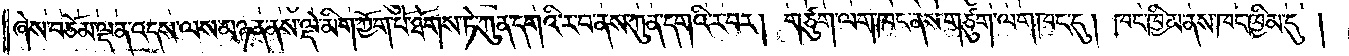ཞེས་བཅོམ་ལྡན་འདས་ལས་མཉན་ནས་ལྡེ་མིག་ཀྱོག་པོ་ཐོགས་ཏེ་ཀུན་དགའི་ར་བ་ནས་ཀུན་དགའི་ར་བར། གཙུག་ལག་ཁང་ནས་གཙུག་ལག་ཁང་དུ། ཁང་ཁྱིམ་ནས་ཁང་ཁྱིམ་དུ་།
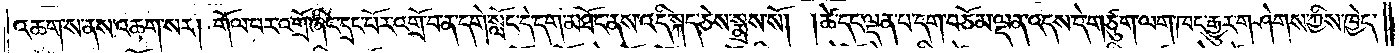འཆག་ས་ནས་འཆག་སར། གོལ་བར་འགྲོ་ཞིང་དྲང་པོར་འགྲོ་བ་ན་དགེ་སློང་དེ་དག་མཐོང་ནས་འདི་སྐད་ཅེས་སྨྲས་སོ། །ཚེ་དང་ལྡན་པ་དག་བཅོམ་ལྡན་འདས་དེ་གཙུག་ལག་ཁང་རྒྱུར་གཤེགས་ཀྱིས་ཁྱེད་
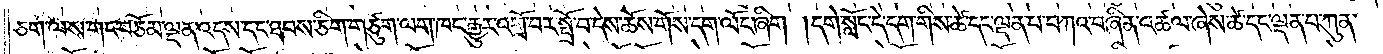ཅག་ལས་གང་བཅོམ་ལྡན་འདས་དང་ཐབས་ཅིག་གཙུག་ལག་ཁང་རྒྱུར་འགྲོ་བར་སྤྲོ་བ་དེས་ཆོས་གོས་དག་ལོང་ཞིག །དགེ་སློང་དེ་དག་གིས་ཚེ་དང་ལྡན་པ་བཀའ་བཞིན་འཚལ་ཞེས་ཚེ་དང་ལྡན་པ་ཀུན་
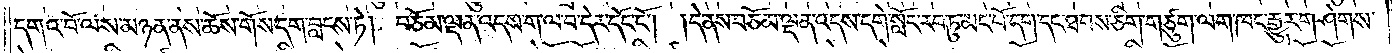དགའ་བོ་ལས་མཉན་ནས་ཆོས་གོས་དག་བླངས་ཏེ། བཅོམ་ལྡན་འདས་ག་ལ་བ་དེར་དོང་ངོ༌། །དེ་ནས་བཅོམ་ལྡན་འདས་དགེ་སློང་རབ་ཏུ་མང་པོ་དག་དང་ཐབས་ཅིག་གཙུག་ལག་ཁང་རྒྱུར་གཤེགས་
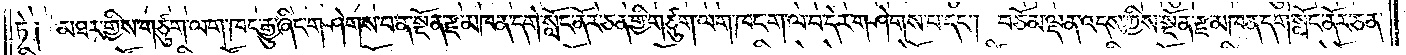ཏེ༑ མཐར་གྱིས་གཙུག་ལག་ཁང་རྒྱུ་ཞིང་གཤེགས་པ་ན་སྔོན་རྫ་མཁན་དགེ་སློང་ནོར་ཅན་གྱི་གཙུག་ལག་ཁང་ག་ལ་བ་དེར་གཤེགས་པ་དང༌། བཅོམ་ལྡན་འདས་ཀྱིས་སྔོན་རྫ་མཁན་དགེ་སློང་ནོར་ཅན་
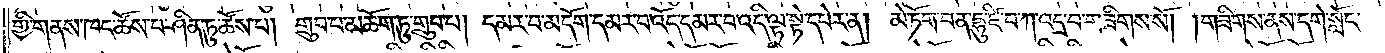གྱི་གནས་ཁང་ཚོས་པ་ཤིན་ཏུ་ཚོས་པ། གྲུབ་པ་མཆོག་ཏུ་གྲུབ་པ། དམར་བ་མདོག་དམར་བ་འོད་དམར་བ་འདི་ལྟ་སྟེ་དཔེར་ན། མེ་ཏོག་བན་དྷུ་ཛི་བ་ཀ་འདྲ་བ་གཟིགས་སོ། །གཟིགས་ནས་དགེ་སློང་
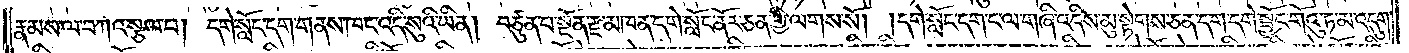རྣམས་ལ་བཀའ་སྩལ་པ། དགེ་སློང་དག་གནས་ཁང་འདི་སུའི་ཡིན། བཙུན་པ་སྔོན་རྫ་མཁན་དགེ་སློང་ནོར་ཅན་གྱི་ལགས་སོ། །དགེ་སློང་དག་ང་ལ་གཞི་འདིས་མུ་སྟེགས་ཅན་དག་དགེ་སྦྱོང་གོའུ་ཏ་མ་འདུག་
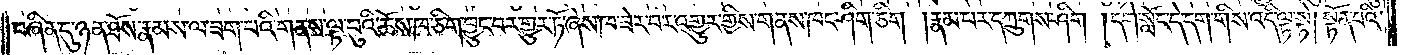བཞིན་དུ་ཉན་ཐོས་རྣམས་ལ་ཟག་པའི་གནས་ལྟ་བུའི་ཆོས་ཁ་ཅིག་བྱུང་བར་གྱུར་ཏོ་ཞེས་ཁ་ཟེར་བར་འགྱུར་གྱིས་གནས་ཁང་ཤིག་ཅིག །རྣམ་པར་དཀྲུགས་ཤིག །དགེ་སློང་དེ་དག་གིས་འདི་ལྟ་སྟེ། སྟོན་པའི་
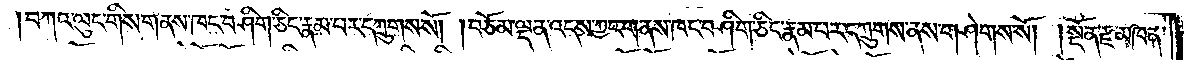བཀའ་ལུང་གིས་གནས་ཁང་བཤིག་ཅིང་རྣམ་པར་དཀྲུགས་སོ། །བཅོམ་ལྡན་འདས་ཀྱང་གནས་ཁང་བཤིག་ཅིང་རྣམ་པར་དཀྲུགས་ནས་གཤེགས་སོ། །སྔོན་རྫ་མཁན་
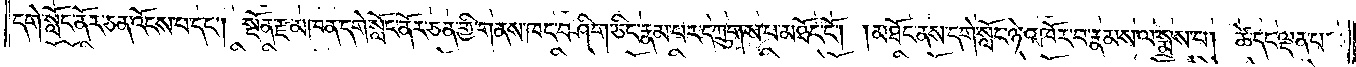དགེ་སློང་ནོར་ཅན་འོངས་པ་དང༌། སྔོན་རྫ་མཁན་དགེ་སློང་ནོར་ཅན་གྱི་གནས་ཁང་བཤིག་ཅིང་རྣམ་པར་དཀྲུགས་པ་མཐོང་ངོ༌། །མཐོང་ནས་དགེ་སློང་ཉེ་འཁོར་བ་རྣམས་ལ་སྨྲས་པ། ཚེ་དང་ལྡན་པ་
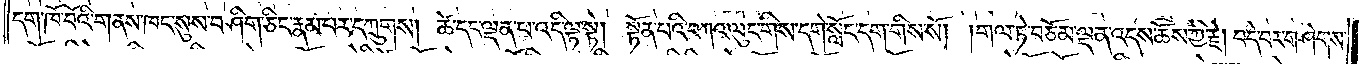དག་ཁོ་བོའི་གནས་ཁང་སུས་བཤིག་ཅིང་རྣམ་པར་དཀྲུགས། ཚེ་དང་ལྡན་པ་འདི་ལྟ་སྟེ། སྟོན་པའི་བཀའ་ལུང་གིས་དགེ་སློང་དག་གིས་སོ། །གལ་ཏེ་བཅོམ་ལྡན་འདས་ཆོས་ཀྱི་རྗེ། བདེ་བར་གཤེགས་
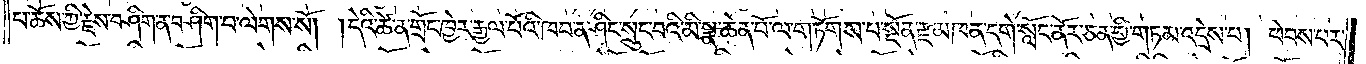པ་ཆོས་ཀྱི་རྗེས་བཤིག་ན་བཤིག་པ་ལེགས་སོ། །དེའི་ཚེ་ན་གྲོང་ཁྱེར་རྒྱལ་པོའི་ཁབ་ན་ཤིང་སྲུང་བའི་མི་སྣ་ཆེན་པོ་ལ་གཏོགས་པ་སྔོན་རྫ་མཁན་དགེ་སློང་ནོར་ཅན་གྱི་གཏམ་འདྲེས་པ། ཕེབས་པར་
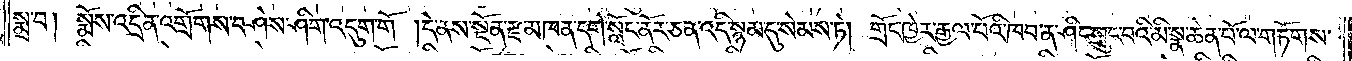སྨྲ་བ། སྨོས་འདྲིན་འགྲོགས་བཤེས་ཤིག་འདུག་གོ །དེ་ནས་སྔོན་རྫ་མཁན་དགེ་སློང་ནོར་ཅན་འདི་སྙམ་དུ་སེམས་ཏེ། གྲོང་ཁྱེར་རྒྱལ་པོའི་ཁབ་ན་ཤིང་སྲུང་བའི་མི་སྣ་ཆེན་པོ་ལ་གཏོགས་
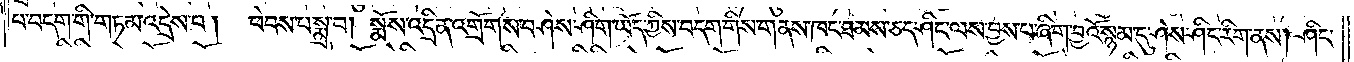པ་བདག་གི་གཏམ་འདྲེས་པ། ཕེབས་པ་སྨྲ་བ། སྨོས་འདྲིན་འགྲོགས་བཤེས་ཤིག་ཡོད་ཀྱིས་བདག་གིས་གནས་ཁང་ཐམས་ཅད་ཤིང་ལས་བྱས་པ་ཞིག་བྱའོ་སྙམ་དུ་ཤེས་ཤིང་རིག་ནས། ཤིང་
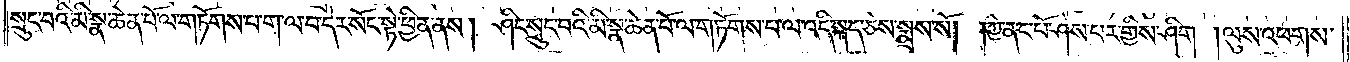སྲུང་བའི་མི་སྣ་ཆེན་པོ་ལ་གཏོགས་པ་ག་ལ་བ་དེར་སོང་སྟེ་ཕྱིན་ནས། ཤིང་སྲུང་བའི་མི་སྣ་ཆེན་པོ་ལ་གཏོགས་པ་ལ་འདི་སྐད་ཅེས་སྨྲས་སོ། །ཀྱེ་ནང་པོ་ཤེས་པར་གྱིས་ཤིག །ལུས་འཕགས་
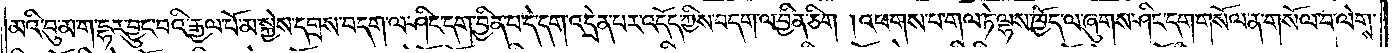མའི་བུ་མ་ག་དྷར་བྱུང་བའི་རྒྱལ་པོ་མ་སྐྱེས་དགྲས་བདག་ལ་ཤིང་དག་བྱིན་པ་དེ་དག་འདྲེན་པར་འདོད་ཀྱིས་བདག་ལ་བྱིན་ཅིག །འཕགས་པ་གལ་ཏེ་ལྷས་ཁྱོད་ལ་ཞུགས་ཤིང་དག་གསོལ་ན་གསོལ་བ་ལེགས་
